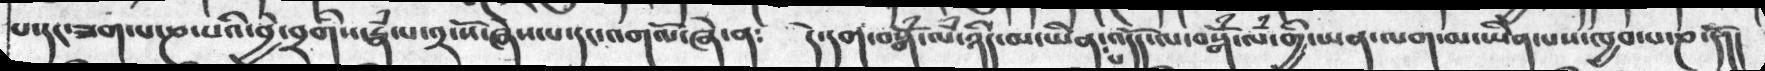པ་དང་ཟག་པ་ཎ་པའི་བྱེ་བྲགིས་རྣཾ་པ་༢་སོ་ཞེས་པ་དང་འགལོ་ཞེ་ན༴   དེ་དག་བསྒོཾ་ལཾ་ཉིད་མ་ཡིན་པ་འདོད་ལ་བསྒོཾ་ལཾ་གྱི་ཡན་ལག་མ་ཡིན་པས་ཁྱབ་པ་ཎ་དོ།།
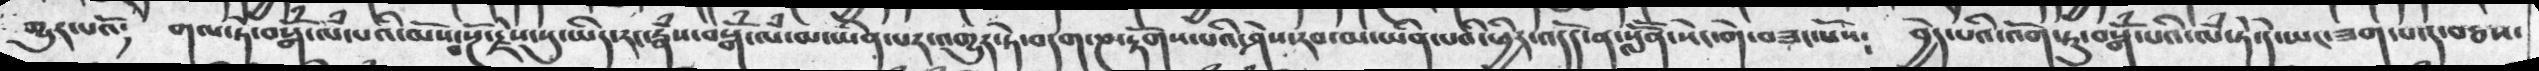གྱུར་པའོ༴  གལ་ཏེ་བསྒོཾ་ལཾ་པའི་མོས་པ་སྔོ་རྗེས་སུ་ཡིད་རང་རྣཾས་བསྒོཾ་ལཾ་མ་ཡིན་པར་འགྱུར་ཏེ་བདག་ཎ་རྟོགས་པའི་ཤེས་རབ་མ་ཡིན་པའི་ཕྱིར་འདོད་ན་སློོན་སེང་གེ་བཟང་པོས༴  བྱེད་པའི་འོག་ཏུ་བསྒོཾ་པའི་ལཾ་ཏེ་དེ་ཡང་ཟག་པ་དང་བཅས་
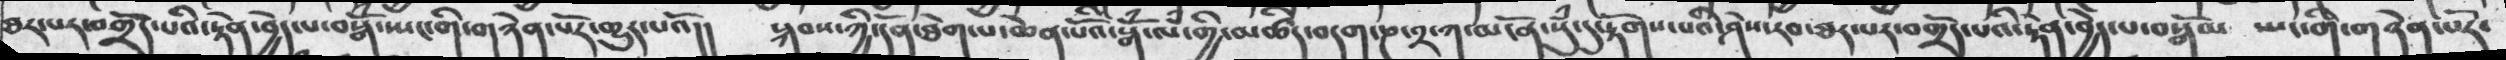ཐར་པར་བགྲོད་པའི་རྟེན་བྱེད་པ་བསྒོཾ་སྤང་གི་གཉེན་པོར་གྱུར་པའོ།། སྐབས་ཀྱི་དོན་ཐེག་པ་ཆེན་པོའི་སྒོཾ་ལཾ་གྱི་མཚིད་བདག་ཎ་༢་ཀ་མངོན་སུཾ་དུ་རྟོགས་པའི་ཤེས་རབ་ཐར་པར་བགྲོད་པའི་རྟེན་བྱེད་པ་བསྒོམ   སྤང་གི་གཉེན་པོར་
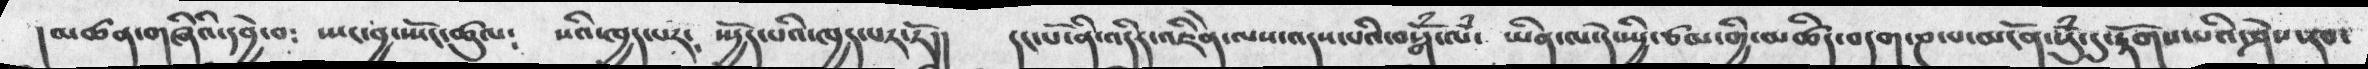།མཚན་གཞིའི་དབྱེ་བ༴  སྤང་བྱ་སྤོང་ཚུལ༴  སའི་ཁྱད་པར༴  སྤྱོད་པའི་ཁྱད་པར་རོ།།  དང་པོ་ནི་འདིར་འཇིེན་ལས་འདས་པའི་བསྒོམ་ལཾ་  ཡིན་ལ་དེ་སྤྱི་ཙམ་མཚིད་བདག་ཎ་པ་མངོན་སུམ་དུ་རྟོགས་པའི་ཤེས་རབ་
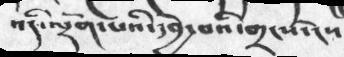འདི་འདྲོག་པའི་དབྱེ་བའི་གྲངས་ངེས
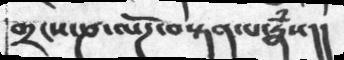གྲངས་ཎ་ལོཌ་བསྟན་པ་རྣཾས།།
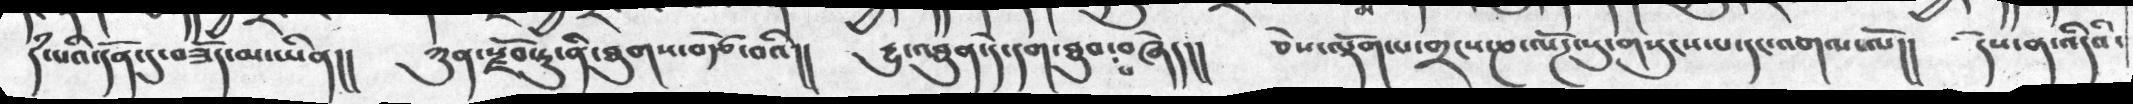དཾ་པའི་དོན་དུ་བཟོད་མ་ཡིན།།  ཀུན་རྫོབ་ཏུ་ནི་ཐུགས་བརྩེ་བའི།།  དྱུ་འཐུན་ད་དག་ཐུབ་པ་བཞེད།།  ཅེས་ལྡོག་པ་གྲངས་ཎ་ལོཌ་སུ་གསུངས་པ་དང་འགལ་ལོ།།  དེས་ན་འདིའི་
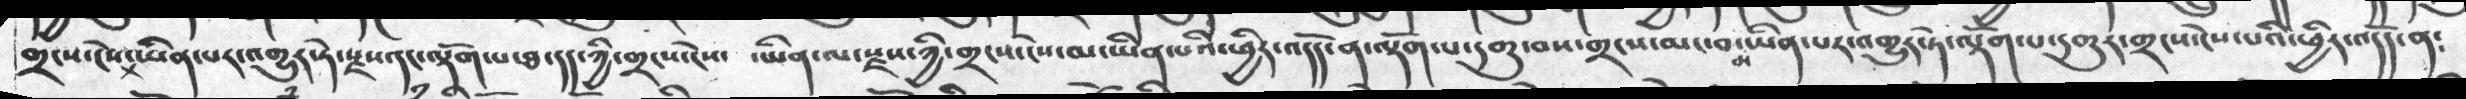གྲངས་ངེས་ཡིན་པར་འགྱུར་ཏེ་རྫས་དང་ལྡོག་པ་ཐ་དད་ཀྱི་གྲངས་ངེས་  ་ཡིན་ལ་རྫས་ཀྱི་གྲངས་ངེས་མ་ཡིན་པའི་ཕྱིར་འདོད་ན་ལྡོག་པ་དགུ་བས་གྲངས་མང་བ་མ་ཡིན་པར་འགྱུར་ཏེ་ལྡོག་པ་དགུར་གྲངས་ངེས་པའི་ཕྱིར་འདོད་ན༴
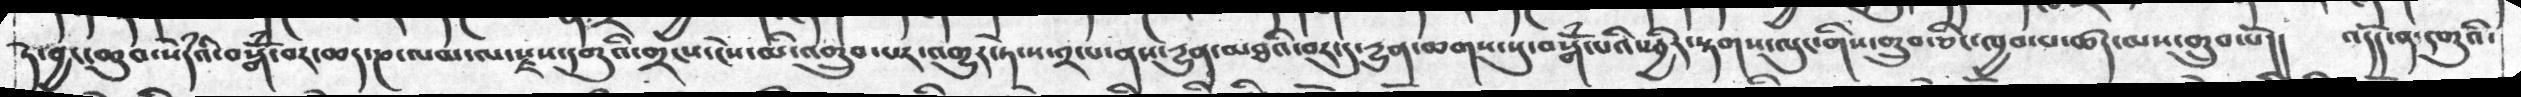ཏེ་བྱང་ཆུབ་སེཾདའི་བསྒོཾ་བར་ཆད་ཎ་ལམ་ལ་རྫས་དགུའི་གྲངས་ངེས་མི་འགྲུབ་པར་འགྱུར་ཏེ་ས་༢་པ་ནས་དྱུན་མཐའི་བར་དུ་དྱུན་ཆགས་སུ་བསྒོཾ་པའི་ཕྱིར་སྟགས་ལུང་གིས་གྲུབ་ཅིང་ཁྱབ་པ་ཚད་མས་གྲུབ་པོ།།   འདོད་ན་དགུའི་
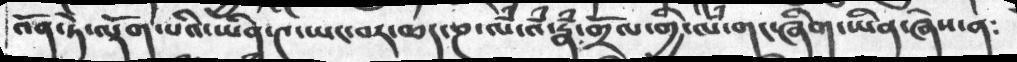འོན་ཏེ་ལྡོག་པའི་ཡིན་༤་ཡང་བར་ཆད་ཎ་ལཾ་འཾ་རྣཾ་གྲོལ་གྱི་ལཾ་གང་ཞིག་ཡིན་ཞེས་ན༴
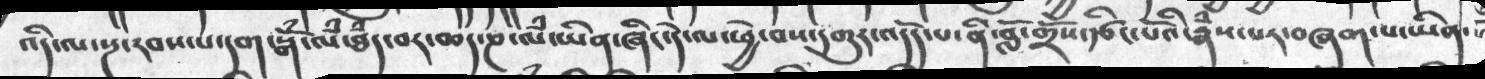འདི་ལ་སྔ་རབས་པ་དག་སྒོཾ་ལཾ་ཐཾད་བར་ཆད་ཎ་ལཾ་ཡིན་ཞིང་དེ་ལ་ཕྱེ་བས་དགུར་འདོད་པ་ནི་བློ་གྲོས་རྩིང་པོའི་རྣཾས་པར་བཞག་པ་ཡིན་
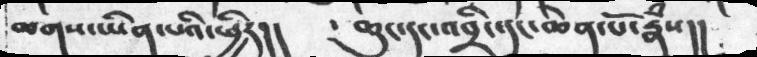ཆགས་ཡིན་པའི་ཕྱིར།།    །  ཆུང་དང་འབྲིང་དང་ཆེན་པོ་རྣཾས།།
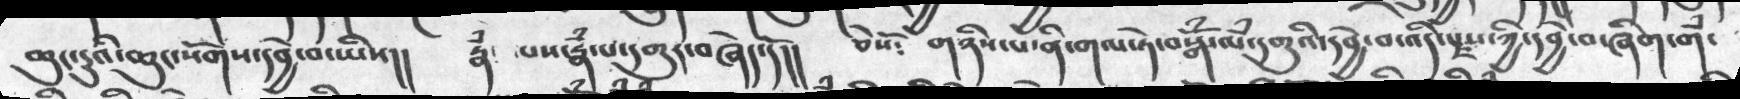ཆུང་དྱུའི་ཆུང་སོགས་དབྱེ་བ་ཡིས།།    རྣཾ་ པས་རྣཾ་པ་དགུར་བཞེད་དོ།།  ཅེསོ༴  གཉིས་པ་ནི་གལ་ཏེ་བསྒོཾ་ལཾ་དགུའི་དབྱེ་བ་འདི་སྫས་ཀྱི་དབྱེ་བ་ཞིག་གཾ་
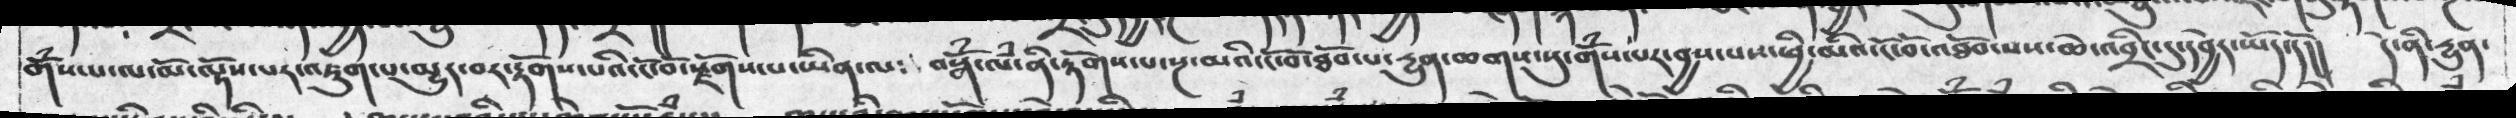གོཾས་པ་ལ་མོ་ལྟོས་པར་འཇུག་པ་མྱུར་བར་རྟོགས་པའི་ངོ་བོ་རྫོགས་པ་ཡིན་པ༴  བསྒོཾ་ལཾ་ནི་རྟོགས་པ་སྔ་མའི་ངོ་བོ་ཐོབ་པ་དྱུན་ཆགས་སུ་གོཾས་པར་བྱས་པས་ཕྱི་མའི་ངོ་བོ་འཐོབ་པས་ཆེ་འབྲིང་དུ་དབྱེར་ཡོད་དོ།།  དེ་ནི་དྱུན་
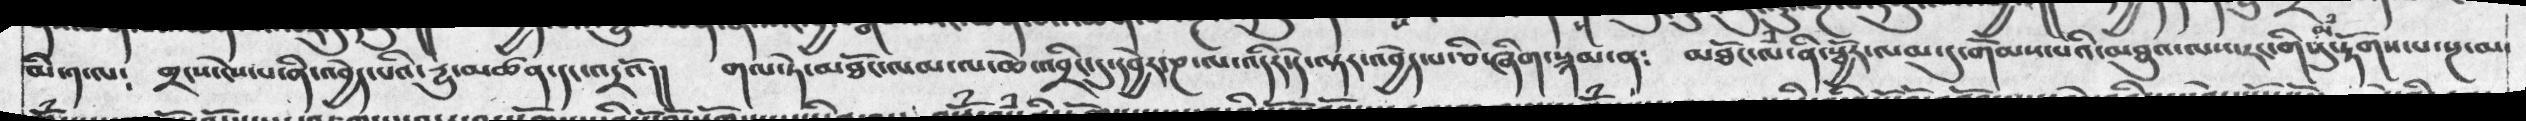མི་༡་ལ༴   གྲངས་ངེས་པ་ནི་འབྱེད་པའི་དྱུ་མཚན་དང་འདྲའོ།།   གལ་ཏེ་མཐོང་ལམ་ལ་ཆེ་འབྲིང་དུ་དབྱེར་ཎ་ལ་འདིར་དེ་ལྟར་འབྱེད་པ་ཅི་ཞིག་སྙམ་ན༴  མཐོང་ལཾ་ནི་སྦྱོར་ལམ་དུ་གོམས་པའི་མཐུའ་ལས་རང་གི་ལཾ་དུ་རྟོགས་པ་སྔ་མ་
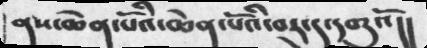། ནས་ཆེན་པོའི་ཆེན་པོའི་བར་དུ་དགུའོ།།
